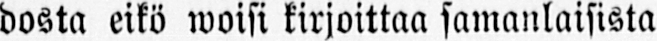dosta eikö woisi kirjoittaa samanlaisista
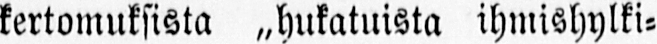kertomuksista „hukatuista ihmishylki-
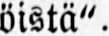öistä".
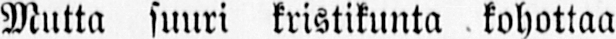Mutta suuri kristikunta kohottaa
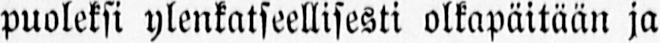puoleksi ylenkatseellisesti olkapäitään ja
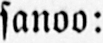sanoo:
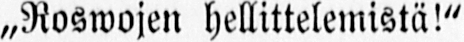„Roswojen hellittelemistä!"
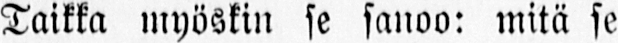Taikka myöskin se sanoo: mitä se
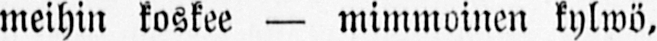meihin koskee — mimmoinen kylwö,
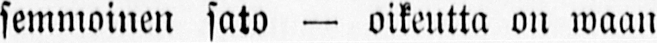semmoinen sato — oikeutta on waan
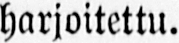harjoitettu.
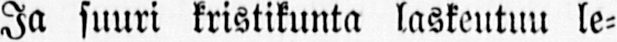Ja suuri kristikunta laskeutuu le-
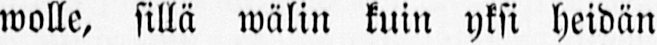wolle, sillä wälin kuin yksi heidän
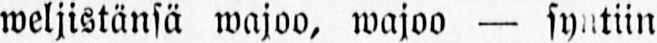weljistänsä wajoo, wajoo — sy ntin
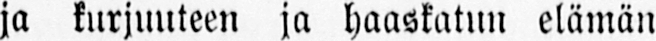ja kurjuuteen ja haaskatun elämän
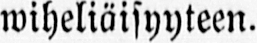wiheliäisyyteen.
